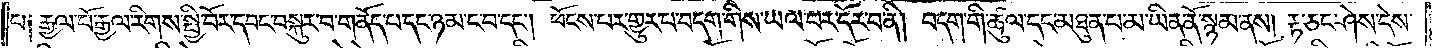པ༑ རྒྱལ་པོ་རྒྱལ་རིགས་སྤྱི་བོར་དབང་བསྐུར་བ་གནོད་པ་དང་ཉམ་ང་བ་དང༌། ཕོངས་པར་གྱུར་པ་བདག་གིས་ཡལ་བར་དོར་བ་ནི། བདག་གི་ཚུལ་དང་མཐུན་པ་མ་ཡིན་ནོ་སྙམ་ནས། རྟ་ཅང་ཤེས་དེས་
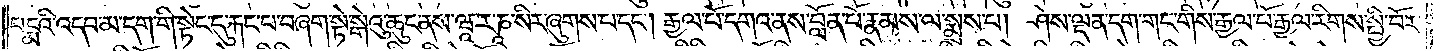པདྨའི་འདབ་མ་དག་གི་སྟེང་དུ་རྐང་པ་བཞག་སྟེ་སྒེའུ་ཆུང་ནས་ཝཱ་ར་ཎཱ་སིར་ཞུགས་པ་དང༌། རྒྱལ་པོ་དགའ་ནས་བློན་པོ་རྣམས་ལ་སྨྲས་པ། ཤེས་ལྡན་དག་གང་གིས་རྒྱལ་པོ་རྒྱལ་རིགས་སྤྱི་བོར་
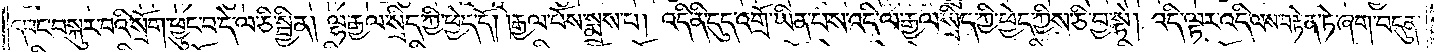དབང་བསྐུར་བའི་སྲོག་ཕྱུང་བ་དེ་ལ་ཅི་སྦྱིན། ལྷ་རྒྱལ་སྲིད་ཀྱི་ཕྱེད་དོ། །རྒྱལ་པོས་སྨྲས་པ། འདི་ནི་དུད་འགྲོ་ཡིན་པས་འདི་ལ་རྒྱལ་སྲིད་ཀྱི་ཕྱེད་ཀྱིས་ཅི་བྱ་སྟེ། འདི་ལྟར་འདི་ལས་བརྟེན་ཏེ་ཞག་བདུན་
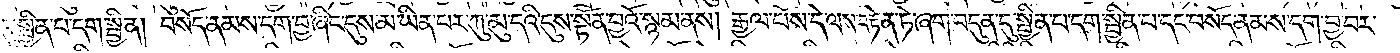དུ་སྦྱིན་པ་དག་སྦྱིན། བསོད་ནམས་དག་བྱ་ཞིང་དུས་མ་ཡིན་པར་ཀུ་མུ་དའི་དུས་སྟོན་བྱའོ་སྙམ་ནས། རྒྱལ་པོས་དེ་ལས་བརྟེན་ཏེ་ཞག་བདུན་དུ་སྦྱིན་པ་དག་སྦྱིན་པ་དང་བསོད་ནམས་དག་བྱ་བར་
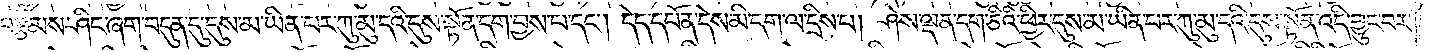བརྩམས་ཤིང་ཞག་བདུན་དུ་དུས་མ་ཡིན་པར་ཀུ་མུ་དའི་དུས་སྟོན་དག་བྱས་པ་དང༌། དེད་དཔོན་དེས་མི་དག་ལ་དྲིས་པ། ཤེས་ལྡན་དག་ཅིའི་ཕྱིར་དུས་མ་ཡིན་པར་ཀུ་མུ་དའི་དུས་སྟོན་འདི་བྱུང་བར་
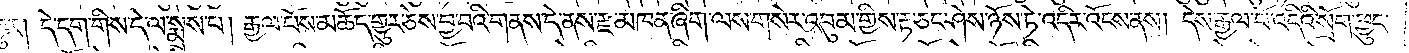གྱུར། དེ་དག་གིས་དེ་ལ་སྨྲས་པ། རྒྱལ་པོས་མཆོད་གྱུར་ཅེས་བྱ་བའི་གནས་དེ་ནས་རྫ་མཁན་ཞིག་ལས་གསེར་འབུམ་གྱིས་རྟ་ཅང་ཤེས་ཉོས་ཏེ་འདིར་འོངས་ནས། དེས་རྒྱལ་པོ་འདིའི་སྲོག་ཕྱུང་
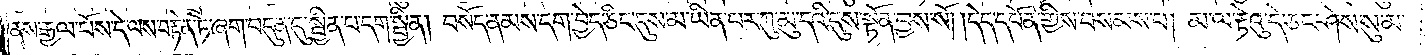ནས་རྒྱལ་པོས་དེ་ལས་བརྟེན་ཏེ་ཞག་བདུན་དུ་སྦྱིན་པ་དག་སྦྱིན། བསོད་ནམས་དག་བྱེད་ཅིང་དུས་མ་ཡིན་པར་ཀུ་མུ་དའི་དུས་སྟོན་བྱས་གསོ། །དེད་དཔོན་གྱིས་བསམས་པ། མ་ལ་རྟེའུ་དེ་ཅང་ཤེས་སུ་མ་
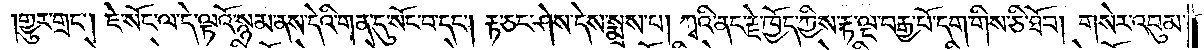གྱུར་གྲང༌། ཇེ་སོང་ལ་དེ་ལྟའོ་སྙམ་ནས་དེའི་གན་དུ་སོང་བ་དང༌། རྟ་ཅང་ཤེས་དེས་སྨྲས་པ། ཀྭའི་ནང་རྗེ་ཁྱོད་ཀྱིས་རྟ་ལྔ་བརྒྱ་པོ་དག་གིས་ཅི་ཐོབ། གསེར་འབུམ་
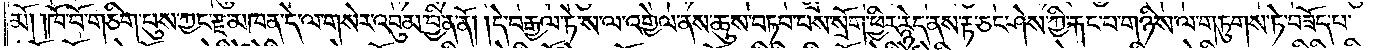མོ། །ཁོ་བོ་གཅིག་པུས་ཀྱང་རྫ་མཁན་དེ་ལ་གསེར་འབུམ་བྱིན་ནོ། །དེ་བརྒྱལ་ཏེ་ས་ལ་འགྱེལ་ནས་ཆུས་བཏབ་པས་སྲོག་ཕྱིར་རྙེད་ནས་རྟ་ཅང་ཤེས་ཀྱི་རྐང་པ་གཉིས་ལ་གཏུགས་ཏེ་བཟོད་པ་
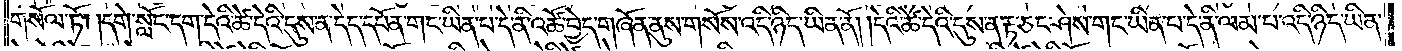གསོལ་ཏོ། །དགེ་སློང་དག་དེའི་ཚེ་དེའི་དུས་ན་དེད་དཔོན་གང་ཡིན་པ་དེ་ནི་འཚོ་བྱེད་གཞོན་ནུས་གསོས་འདི་ཉིད་ཡིན་ནོ། །དེའི་ཚེ་དེའི་དུས་ན་རྟ་ཅང་ཤེས་གང་ཡིན་པ་དེ་ནི་ལམ་པ་འདི་ཉིད་ཡིན་
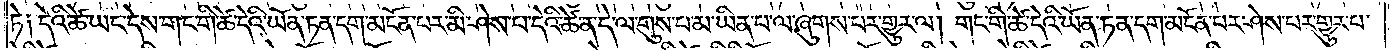ཏེ། དེའི་ཚེ་ཡང་དེས་གང་གི་ཚེ་དེའི་ཡོན་ཏན་དག་མངོན་པར་མི་ཤེས་པ་དེའི་ཚེ་ན་དེ་ལ་གུས་པ་མ་ཡིན་པ་ལ་ཞུགས་པར་གྱུར་ལ། གང་གི་ཚེ་དེའི་ཡོན་ཏན་དག་མངོན་པར་ཤེས་པར་གྱུར་པ་
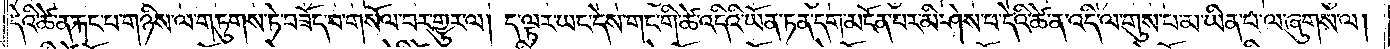དེའི་ཚེ་ན་རྐང་པ་གཉིས་ལ་གཏུགས་ཏེ་བཟོད་པ་གསོལ་བར་གྱུར་ལ། ད་ལྟར་ཡང་དེས་གང་གི་ཚེ་འདིའི་ཡོན་ཏན་དག་མངོན་པར་མི་ཤེས་པ་དེའི་ཚེ་ན་འདི་ལ་གུས་པ་མ་ཡིན་པ་ལ་ཞུགས་ལ།
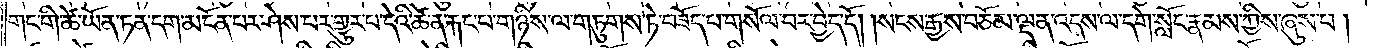གང་གི་ཚེ་ཡོན་ཏན་དག་མངོན་པར་ཤེས་པར་གྱུར་པ་དེའི་ཚེ་ན་རྐང་པ་གཉིས་ལ་གཏུགས་ཏེ་བཟོད་པ་གསོལ་བར་བྱེད་དོ། །སངས་རྒྱས་བཅོམ་ལྡན་འདས་ལ་དགེ་སློང་རྣམས་ཀྱིས་ཞུས་པ།
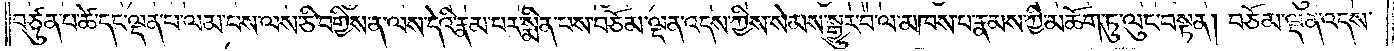བཙུན་པ་ཚེ་དང་ལྡན་པ་ལམ་པས་ལས་ཅི་བགྱིས་ན་ལས་དེའི་རྣམ་པར་སྨིན་པས་བཅོམ་ལྡན་འདས་ཀྱིས་སེམས་སྒྱུར་བ་ལ་མཁས་པ་རྣམས་ཀྱི་མཆོག་ཏུ་ལུང་བསྟན། བཅོམ་ལྡན་འདས་
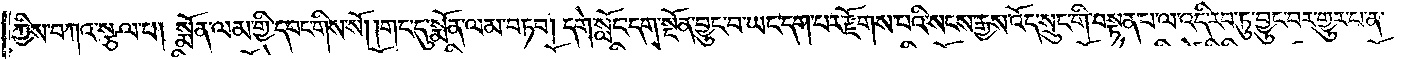ཀྱིས་བཀའ་སྩལ་པ། སྨོན་ལམ་གྱི་དབང་གིས་སོ། །གང་དུ་སྨོན་ལམ་བཏབ། དགེ་སློང་དག་སྔོན་བྱུང་བ་ཡང་དག་པར་རྫོགས་པའི་སངས་རྒྱས་འོད་སྲུང་གི་བསྟན་པ་ལ་འདི་རབ་ཏུ་བྱུང་བར་གྱུར་པ་ན་
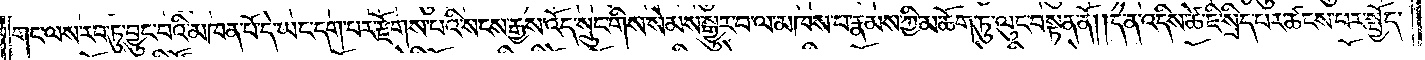གང་ལས་རབ་ཏུ་བྱུང་བའི་མཁན་པོ་དེ་ཡང་དག་པར་རྫོགས་པའི་སངས་རྒྱས་འོད་སྲུང་གིས་སེམས་སྒྱུར་བ་ལ་མཁས་པ་རྣམས་ཀྱི་མཆོག་ཏུ་ལུང་བསྟན་ནོ། །དེ་ན་འདིས་ཚེ་ཇི་སྲིད་པར་ཚངས་པར་སྤྱོད་
